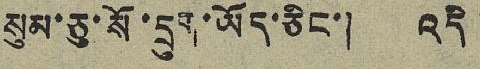སུམ་ཅུ་སོ་དྲུག་ཡོད་ཅིང་། འདི
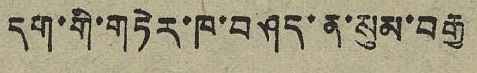དག་གི་གཏེར་ཁ་བཤད་ན་སུམ་བརྒྱ
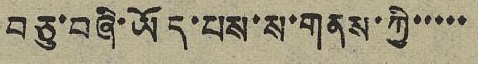བཅུ་བཞི་ཡོད་པས་ས་གནས་ཀྱི་་་་་
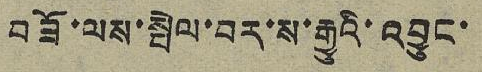བཟོ་ལས་སྦེལ་བར་ས་རྒྱུའི་འབྱུང་
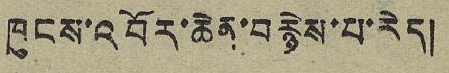ཁུངས་འབོར་ཆེན་བརྙེས་པ་རེད།
